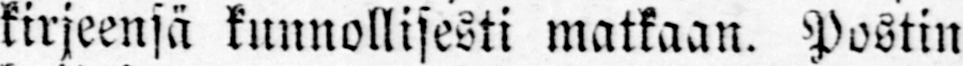kirjeensä kunnollisesti matkaan. Postin
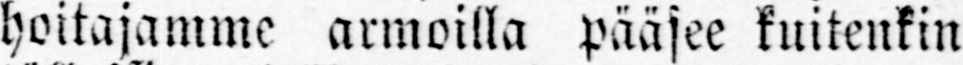hoitajamme armoilla pääsee kuitenkin
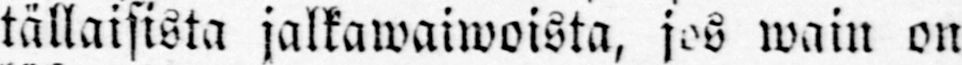tällaisista jalkawaiwoista, jos wain on
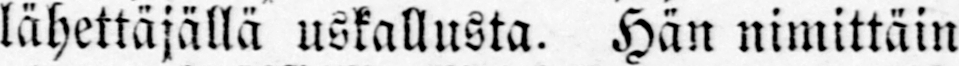lähettäjällä uskallusta. Hän nimittäin
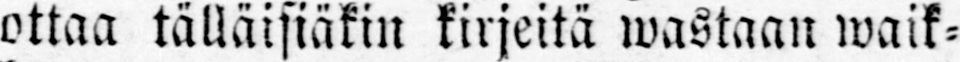ottaa tällaisiakin kirjeitä wastaan waik-
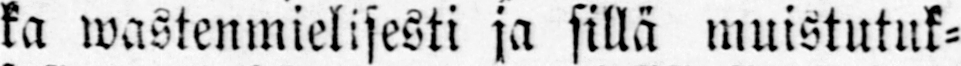ka wastenmielisesti ja sillä muistutuk-
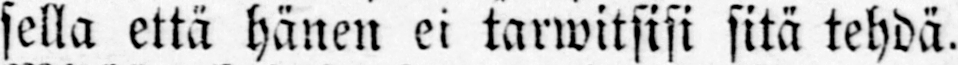sella että hänen ei tarwitsisi sitä tehdä.
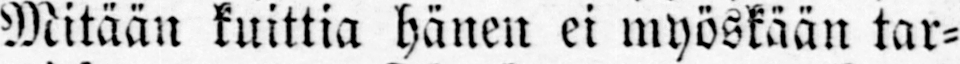Mitään kuittia hänen ei myöskään tar-
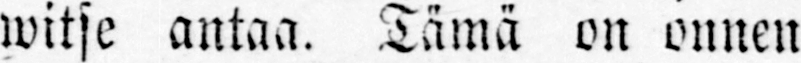witse antaa. Tämä on onnen kaup-
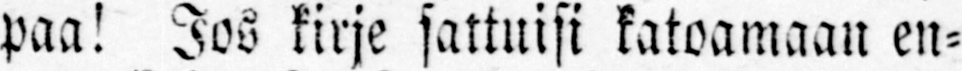paa! Jos kirje sattuisi katoamaan en-
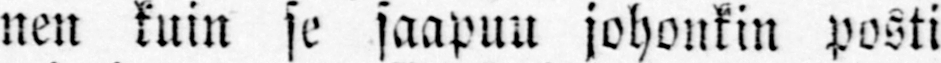nen kuin se saapuu johonkin posti-
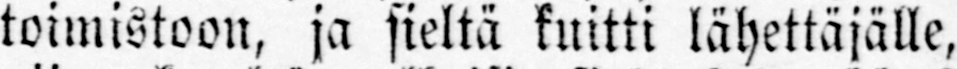toimistoon, ja sieltä kuitti lähettäjälle,
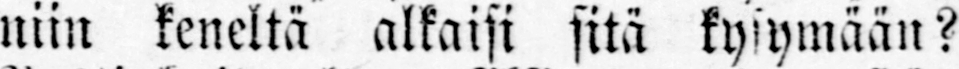niin keneltä alkaisi sitä kysymään?
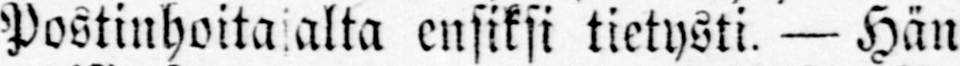Postinhoita jalta ensiksi tietysti. — Hän
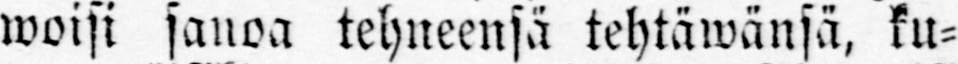woisi sanoa tehneensä tehtäwänsä, ku-
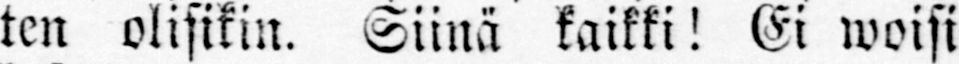ten olisikin. Siinä kaikki! Ei woisi
